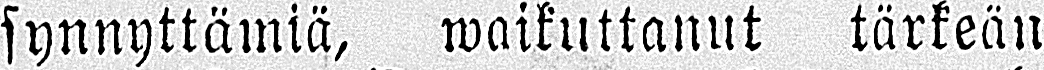synnyttämiä, waikuttanut tärkeän
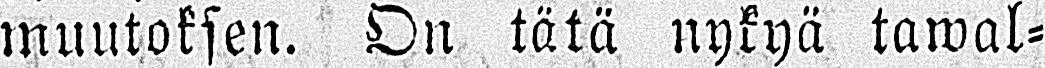muutoksen. On tätä nykyä tawal-
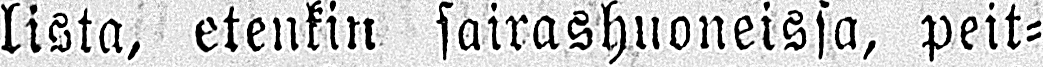lista, etenkin sairashuoneissa, peit-
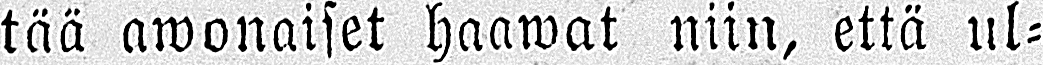tää awonaiset haawat niin, että ul-
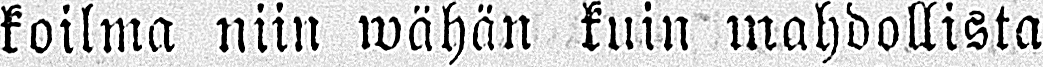koilma niin wähän kuin mahdollista
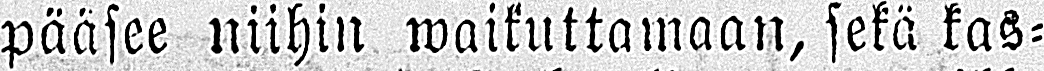pääsee niihin waikuttamaan, sekä kas-
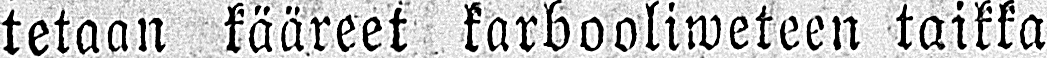tetaan kääreet karbooliweteen taikka
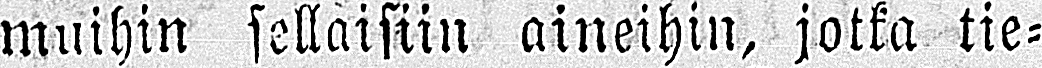muihin sellaisiin aineihin, jotka tie-
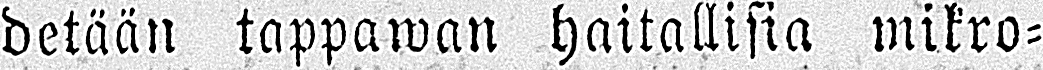detään tappawan haitallisia mikro-
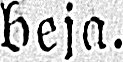beja.
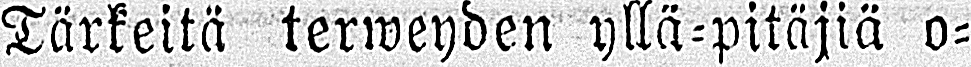Tärkeitä terweyden yllä-pitäjiä o-
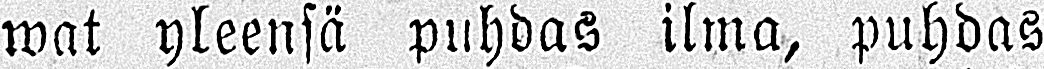wat yleensä puhdas ilma, puhdas
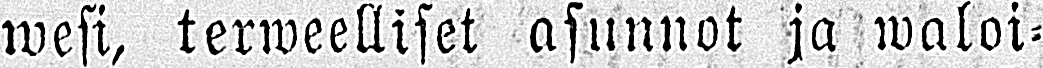wesi, terweelliset asunnot ja waloi-
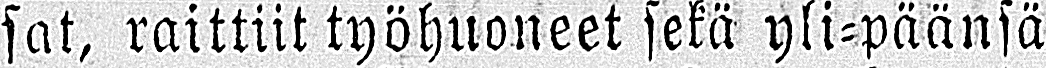sat, raittiit työhuoneet sekä yli-päänsä
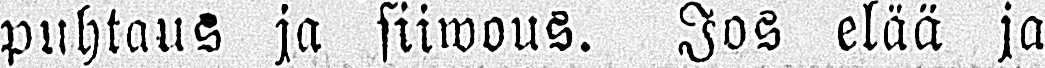puhtaus ja siiwous. Jos elää ja
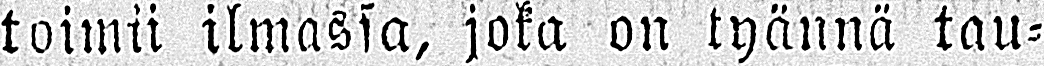toimii ilmassa, joka on tyännä tau-
